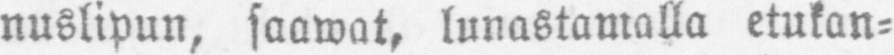nuslipun, saawat, lunastamalla etukan-
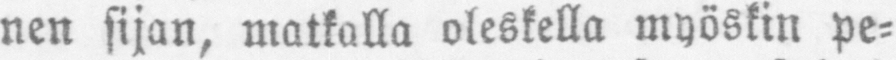nen sijan, matkalla oleskella myöskin pe-
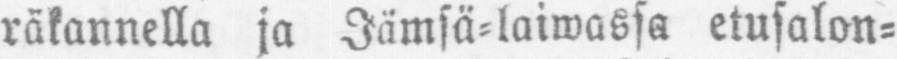räkannella ja Jämsä-laiwassa etusalon-
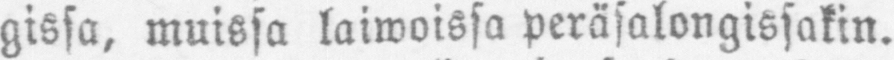gissa, muissa laiwoissa peräsalongissakin.
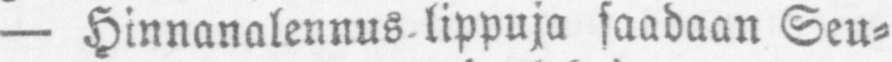— Hinnanalennus -lippuja saadaan Seu-
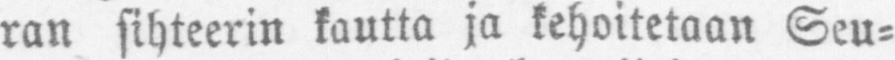ran sihteerin kautta ja kehoitetaan Seu-
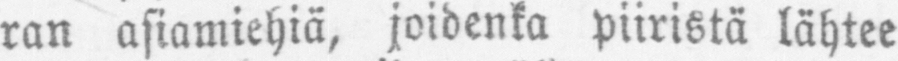ran asiamiehiä, joidenka piiristä lähtee
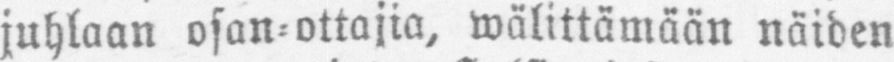juhlaan osan -ottajia, wälittämään näiden
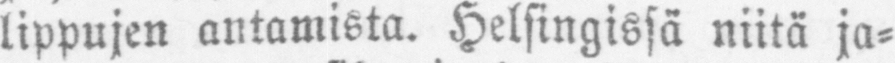lippujen antamista. Helsingissä niitä ja-
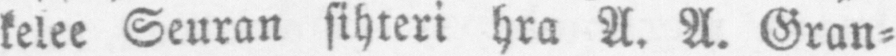kelee Seuran sihteri hra A. A. Gran-
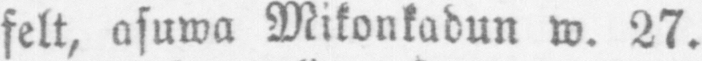felt, asuwa Mikonkadun w. 27.
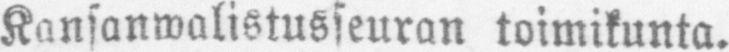Kansanwalistusseuran toimikunta.
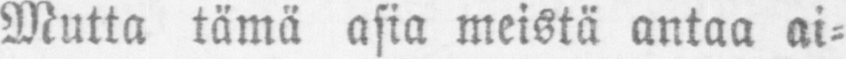Mutta tämä asia meistä antaa ai-
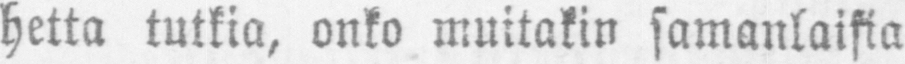hetta tutkia, onko muitakin samanlaisia
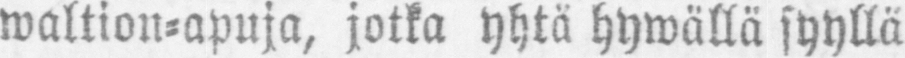waltion-apuja, jotka yhtä hywällä syyllä
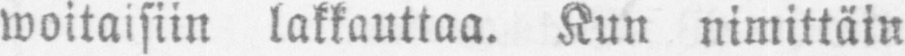woitaisiin lakkauttaa. Kun nimittäin
